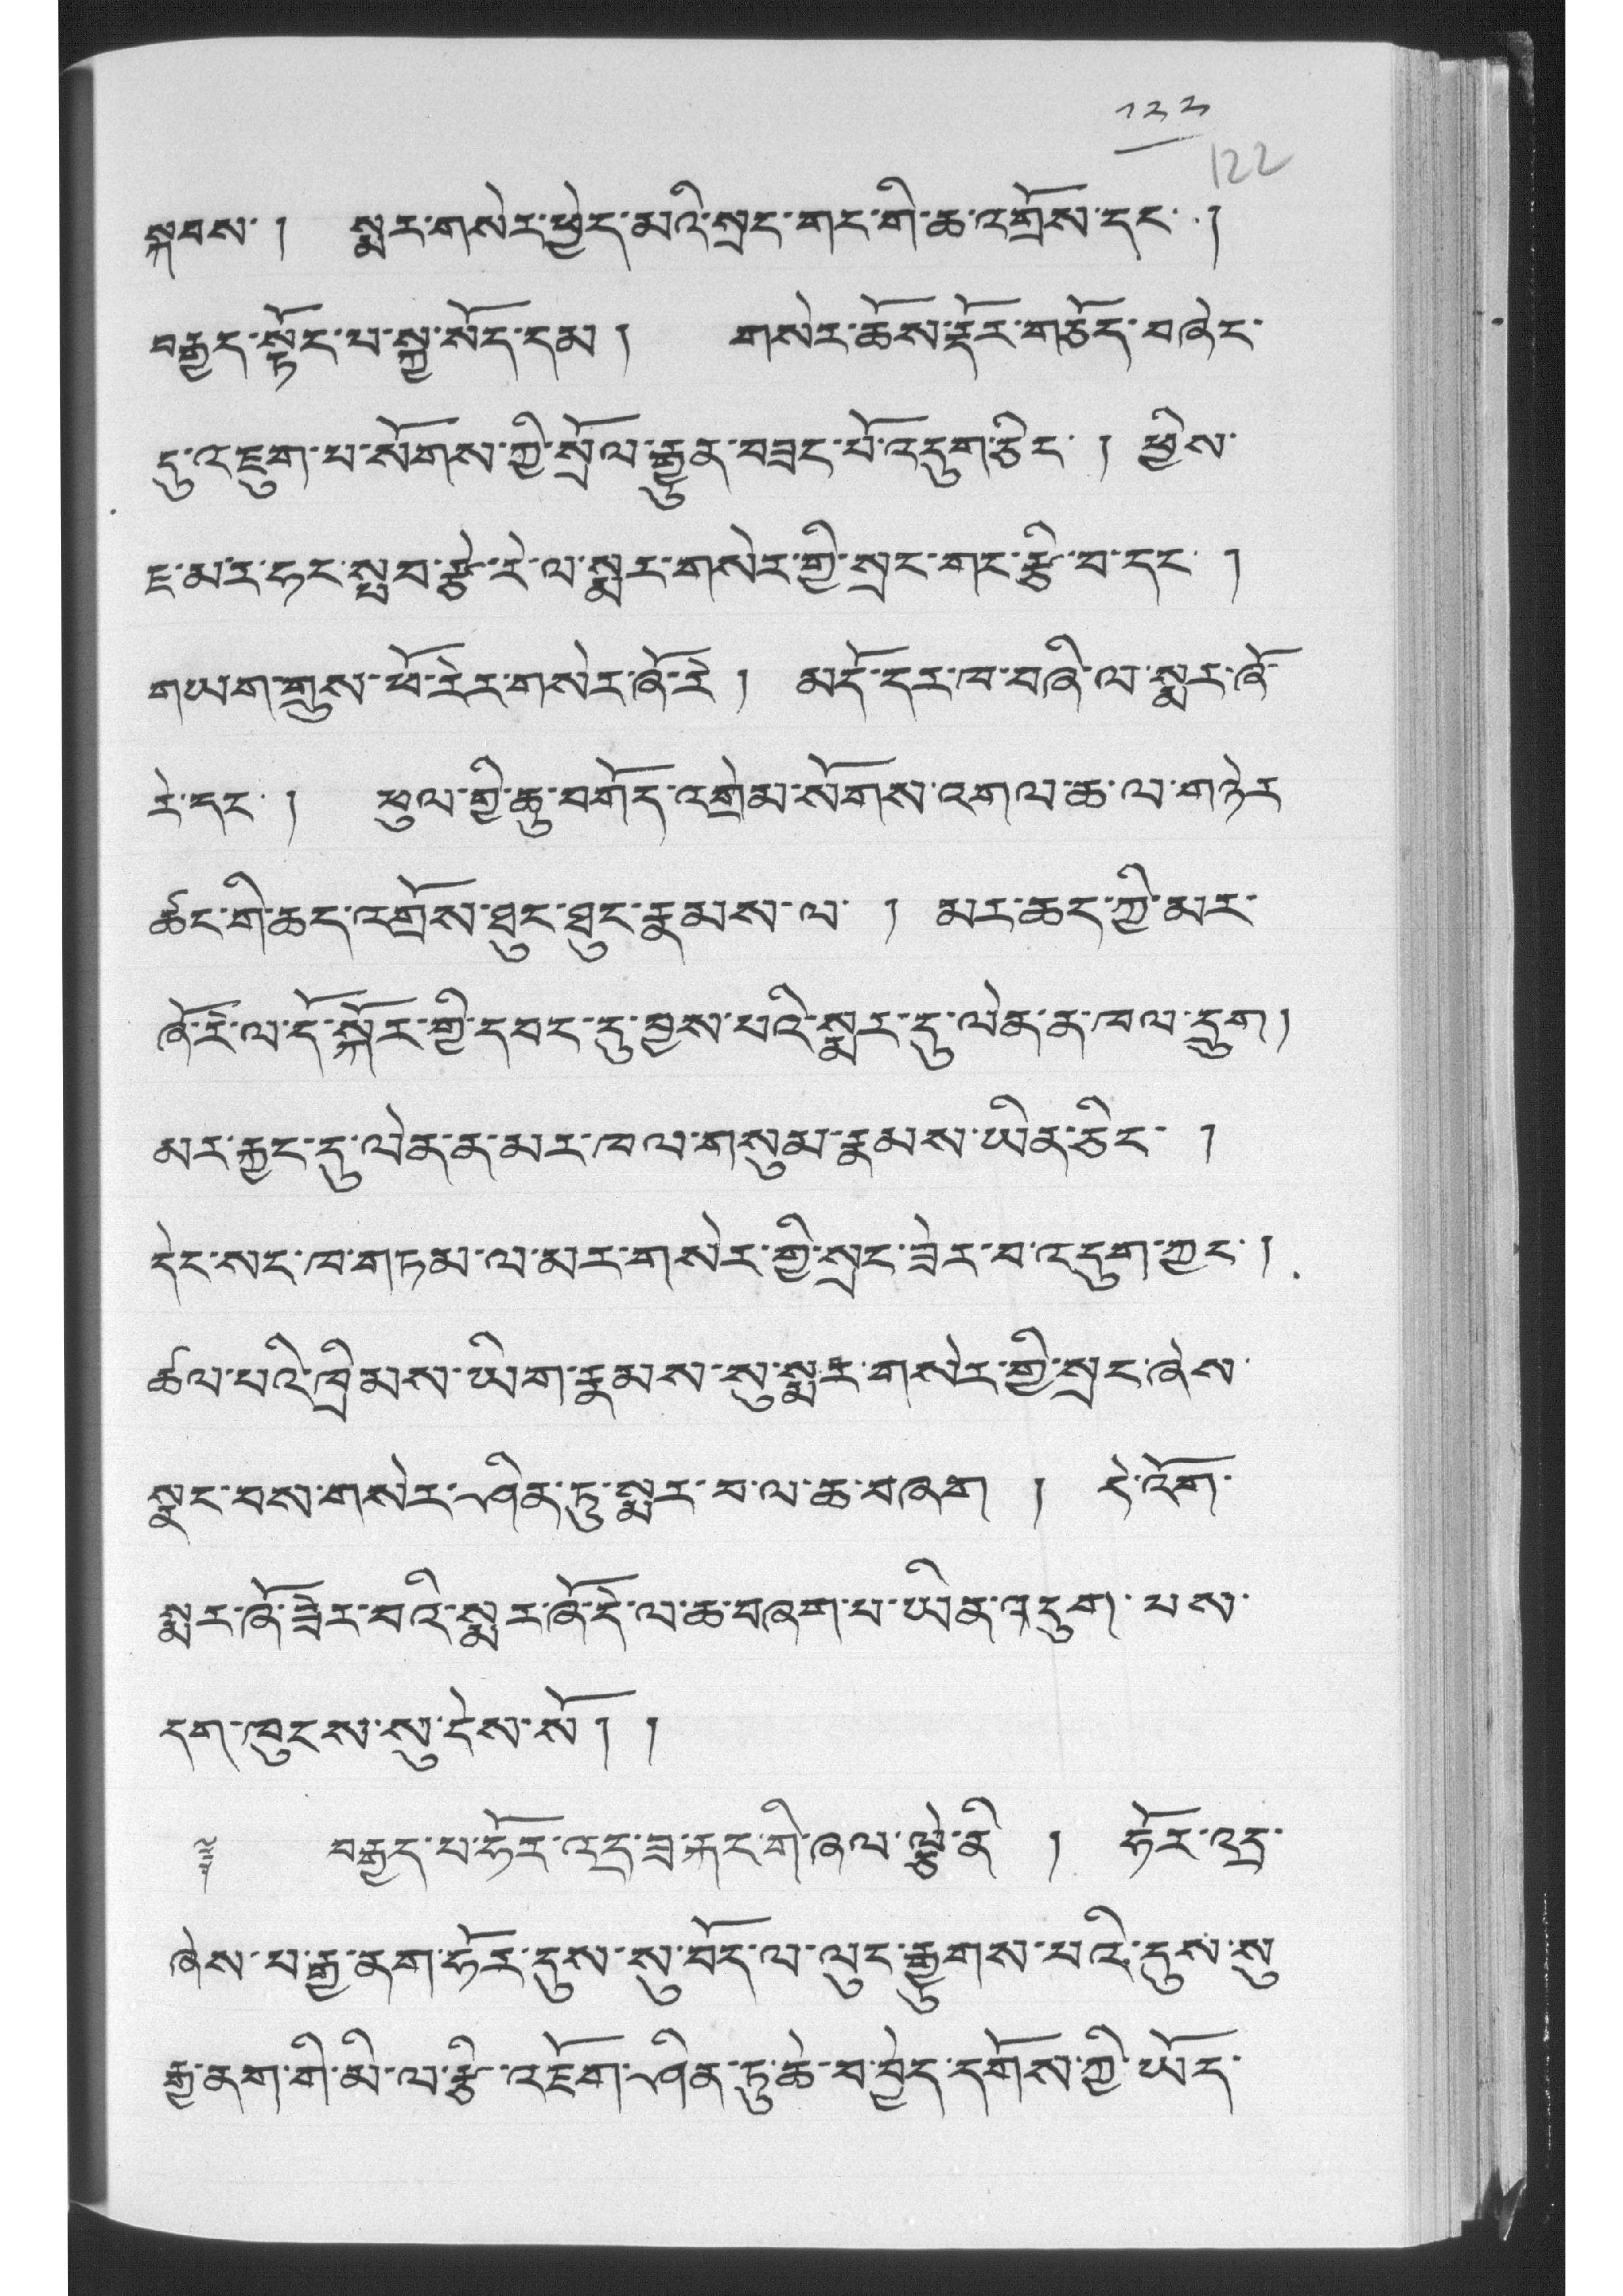༡༢༢
སྐབས་། སྨར་གསེར་ཕྱེད་མའི་སྲང་གང་གི་ཆ་འགྲོས་དང་ །
བརྒྱད་སྟོང་པ་སྐྱ་སོད་དམ། གསེར་ཆོས་རྡོར་གཅོད་བཞེང་
དུ་འཇུག་པ་སོགས་ཀྱི་སྲོལ་རྒྱུན་བཟང་པོ་འདུག་ཅིང་ ། ཕྱིས་
ཇ་མར་ཧང་སྤབ་རྩེ་རེ་ལ་སྨར་གསེར་གྱི་སྲང་གང་རྩ་བ་དང་ །
གཡག་གྲུས་ཕོ་རེར་གསེར་ཞོ་རེ། མདོ་དར་ལ་བཞི་ལ་སྨར་ཞོ་
རེ་དང་ ། ཕུལ་གྱི་ཆུ་བགོད་འགྲེམ་སོགས་འགལ་ཆ་ལ་གཉེར་
ཚང་གི་ཆད་འགྲོས་ཐུང་ཐུང་རྣམས་ལ་ ། མར་ཆད་ཀྱི་མར་
ཞོ་རེ་ལ་དོ་སྐོར་གྱི་དབང་དུ་བྱས་པའི་སྨར་དུ་ལེན་ན་ཁལ་དྲུག།
མར་རྐྱང་དུ་ལེན་ན་མར་ཁལ་གསུམ་རྣམས་ཡིན་ཅིང་ །
དེང་སང་ཁ་གཏམ་ལ་མར་གསེར་གྱི་སྲང་ཟེར་བ་འདུག་ཀྱང་།
ཚལ་པའི་ཁྲིམས་ཡིག་རྣམས་སུ་སྨར་གསེར་གྱི་སྲང་ཞེས་
སྣང་བས་གསེར་ཤིན་ཏུ་སྨར་བ་ལ་ཆ་བཞག ། དེ་འོག་
སྨར་ཞོ་ཟེར་བའི་སྨར་ཞོ་དེ་ལ་ཆ་བཞག་པ་ཡིན་འདུག་པས་
དག་ཁུངས་སུ་ངེས་སོ། །
༈ བརྒྱུད་པ་ཧོར་འདྲ་ཟ་རྐང་གི་ཞལ་ལྕེ་ནི་ ། ཧོར་འདྲ་
ཞེས་པ་རྒྱ་ནག་ཧོར་དུས་སུ་བོད་ལ་ལུང་རྒྱུགས་པའི་དུས་སུ་
རྒྱ་ནག་གི་མི་ལ་རྩི་འཇོག་ཤིན་ཏུ་ཆེ་བ་བྱེད་དགོས་ཀྱི་ཡོད་
